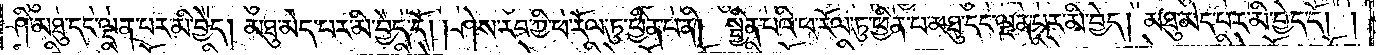ཤི་མཐུ་དང་ལྡན་པར་མི་བྱེད། མཐུ་མེད་པར་མི་བྱེད་དོ། །ཤེས་རབ་ཀྱི་ཕ་རོལ་ཏུ་ཕྱིན་པ་ནི། སྦྱིན་པའི་ཕ་རོལ་ཏུ་ཕྱིན་པ་མཐུ་དང་ལྡན་པར་མི་བྱེད། མཐུ་མེད་པར་མི་བྱེད་དོ། །
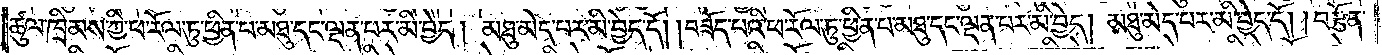ཚུལ་ཁྲིམས་ཀྱི་ཕ་རོལ་ཏུ་ཕྱིན་པ་མཐུ་དང་ལྡན་པར་མི་བྱེད། མཐུ་མེད་པར་མི་བྱེད་དོ། །བཟོད་པའི་ཕ་རོལ་ཏུ་ཕྱིན་པ་མཐུ་དང་ལྡན་པར་མི་བྱེད། མཐུ་མེད་པར་མི་བྱེད་དོ། །བརྩོན་
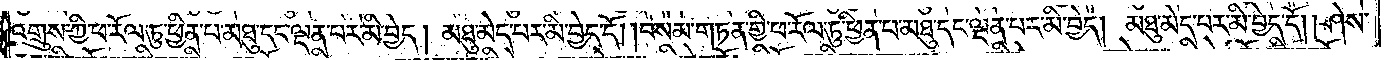འགྲུས་ཀྱི་ཕ་རོལ་ཏུ་ཕྱིན་པ་མཐུ་དང་ལྡན་པར་མི་བྱེད། མཐུ་མེད་པར་མི་བྱེད་དོ། །བསམ་གཏན་གྱི་ཕ་རོལ་ཏུ་ཕྱིན་པ་མཐུ་དང་ལྡན་པར་མི་བྱེད། མཐུ་མེད་པར་མི་བྱེད་དོ། །ཤེས་
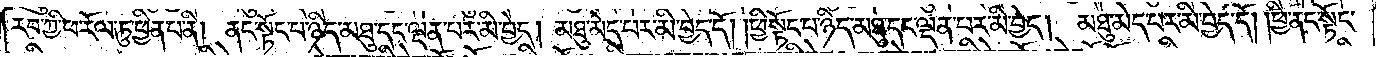རབ་ཀྱི་ཕ་རོལ་ཏུ་ཕྱིན་པ་ནི། ནང་སྟོང་པ་ཉིད་མཐུ་དང་ལྡན་པར་མི་བྱེད། མཐུ་མེད་པར་མི་བྱེད་དོ། །ཕྱི་སྟོང་པ་ཉིད་མཐུ་དང་ལྡན་པར་མི་བྱེད། མཐུ་མེད་པར་མི་བྱེད་དོ། །ཕྱི་ནང་སྟོང་
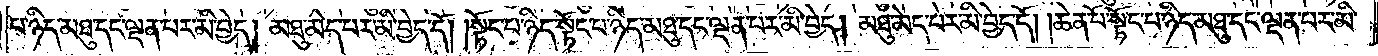པ་ཉིད་མཐུ་དང་ལྡན་པར་མི་བྱེད། མཐུ་མེད་པར་མི་བྱེད་དོ། །སྟོང་པ་ཉིད་སྟོང་པ་ཉིད་མཐུ་དང་ལྡན་པར་མི་བྱེད། མཐུ་མེད་པར་མི་བྱེད་དོ། །ཆེན་པོ་སྟོང་པ་ཉིད་མཐུ་དང་ལྡན་པར་མི་
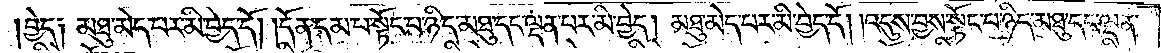བྱེད༑ མཐུ་མེད་པར་མི་བྱེད་དོ། །དོན་དམ་པ་སྟོང་པ་ཉིད་མཐུ་དང་ལྡན་པར་མི་བྱེད། མཐུ་མེད་པར་མི་བྱེད་དོ། །འདུས་བྱས་སྟོང་པ་ཉིད་མཐུ་དང་ལྡན་
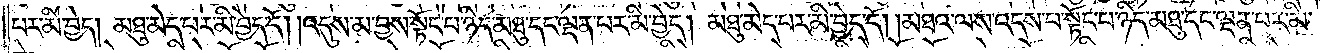པར་མི་བྱེད། མཐུ་མེད་པར་མི་བྱེད་དོ། །འདུས་མ་བྱས་སྟོང་པ་ཉིད་མཐུ་དང་ལྡན་པར་མི་བྱེད། མཐུ་མེད་པར་མི་བྱེད་དོ། །མཐའ་ལས་འདས་པ་སྟོང་པ་ཉིད་མཐུ་དང་ལྡན་པར་མི་
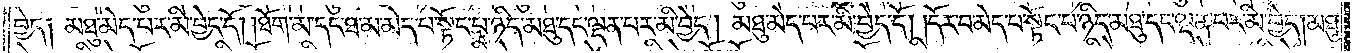བྱེད༑ མཐུ་མེད་པར་མི་བྱེད་དོ། །ཐོག་མ་དང་ཐ་མ་མེད་པ་སྟོང་པ་ཉིད་མཐུ་དང་ལྡན་པར་མི་བྱེད། མཐུ་མེད་པར་མི་བྱེད་དོ། །དོར་བ་མེད་པ་སྟོང་པ་ཉིད་མཐུ་དང་ལྡན་པར་མི་བྱེད། མཐུ་
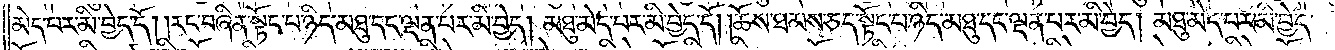མེད་པར་མི་བྱེད་དོ། །རང་བཞིན་སྟོང་པ་ཉིད་མཐུ་དང་ལྡན་པར་མི་བྱེད། མཐུ་མེད་པར་མི་བྱེད་དོ། །ཆོས་ཐམས་ཅད་སྟོང་པ་ཉིད་མཐུ་དང་ལྡན་པར་མི་བྱེད། མཐུ་མེད་པར་མི་བྱེད་
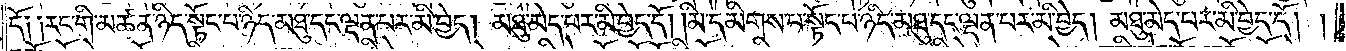དོ༑ ༑རང་གི་མཚན་ཉིད་སྟོང་པ་ཉིད་མཐུ་དང་ལྡན་པར་མི་བྱེད། མཐུ་མེད་པར་མི་བྱེད་དོ། །མི་དམིགས་པ་སྟོང་པ་ཉིད་མཐུ་དང་ལྡན་པར་མི་བྱེད། མཐུ་མེད་པར་མི་བྱེད་དོ། །
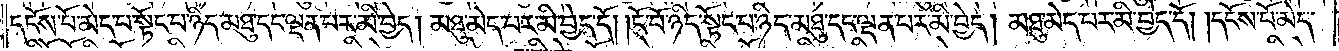དངོས་པོ་མེད་པ་སྟོང་པ་ཉིད་མཐུ་དང་ལྡན་པར་མི་བྱེད། མཐུ་མེད་པར་མི་བྱེད་དོ། །ངོ་བོ་ཉིད་སྟོང་པ་ཉིད་མཐུ་དང་ལྡན་པར་མི་བྱེད། མཐུ་མེད་པར་མི་བྱེད་དོ། །དངོས་པོ་མེད་
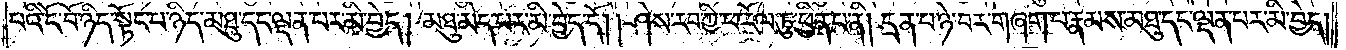པའི་ངོ་བོ་ཉིད་སྟོང་པ་ཉིད་མཐུ་དང་ལྡན་པར་མི་བྱེད། མཐུ་མེད་པར་མི་བྱེད་དོ། །ཤེས་རབ་ཀྱི་ཕ་རོལ་ཏུ་ཕྱིན་པ་ནི། དྲན་པ་ཉེ་བར་གཞག་པ་རྣམས་མཐུ་དང་ལྡན་པར་མི་བྱེད།
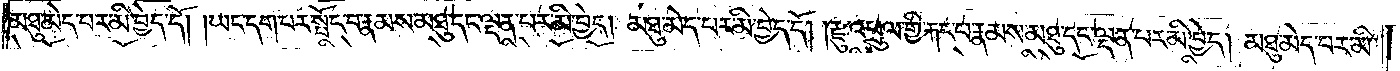མཐུ་མེད་པར་མི་བྱེད་དོ། །ཡང་དག་པར་སྤོང་བ་རྣམས་མཐུ་དང་ལྡན་པར་མི་བྱེད། མཐུ་མེད་པར་མི་བྱེད་དོ། །རྫུ་འཕྲུལ་གྱི་རྐང་པ་རྣམས་མཐུ་དང་ལྡན་པར་མི་བྱེད། མཐུ་མེད་པར་མི་
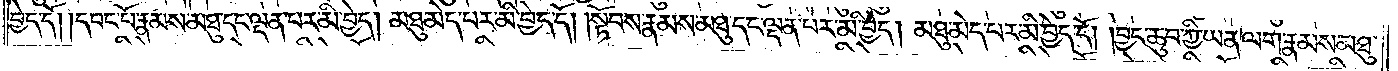བྱེད་དོ། །དབང་པོ་རྣམས་མཐུ་དང་ལྡན་པར་མི་བྱེད། མཐུ་མེད་པར་མི་བྱེད་དོ། །སྟོབས་རྣམས་མཐུ་དང་ལྡན་པར་མི་བྱེད། མཐུ་མེད་པར་མི་བྱེད་དོ། །བྱང་ཆུབ་ཀྱི་ཡན་ལག་རྣམས་མཐུ་
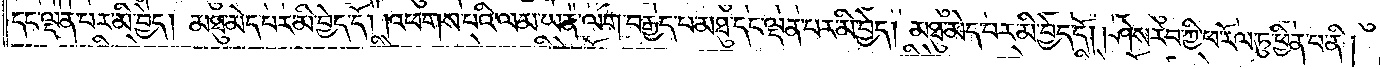དང་ལྡན་པར་མི་བྱེད། མཐུ་མེད་པར་མི་བྱེད་དོ། །འཕགས་པའི་ལམ་ཡན་ལག་བརྒྱད་པ་མཐུ་དང་ལྡན་པར་མི་བྱེད། མཐུ་མེད་པར་མི་བྱེད་དོ། །ཤེས་རབ་ཀྱི་ཕ་རོལ་ཏུ་ཕྱིན་པ་ནི།
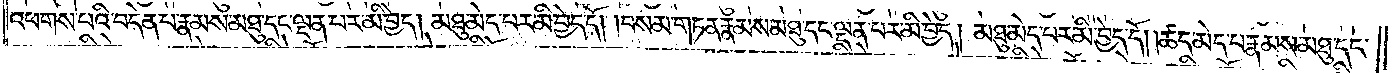འཕགས་པའི་བདེན་པ་རྣམས་མཐུ་དང་ལྡན་པར་མི་བྱེད། མཐུ་མེད་པར་མི་བྱེད་དོ། །བསམ་གཏན་རྣམས་མཐུ་དང་ལྡན་པར་མི་བྱེད། མཐུ་མེད་པར་མི་བྱེད་དོ། །ཚད་མེད་པ་རྣམས་མཐུ་དང་
